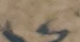༦
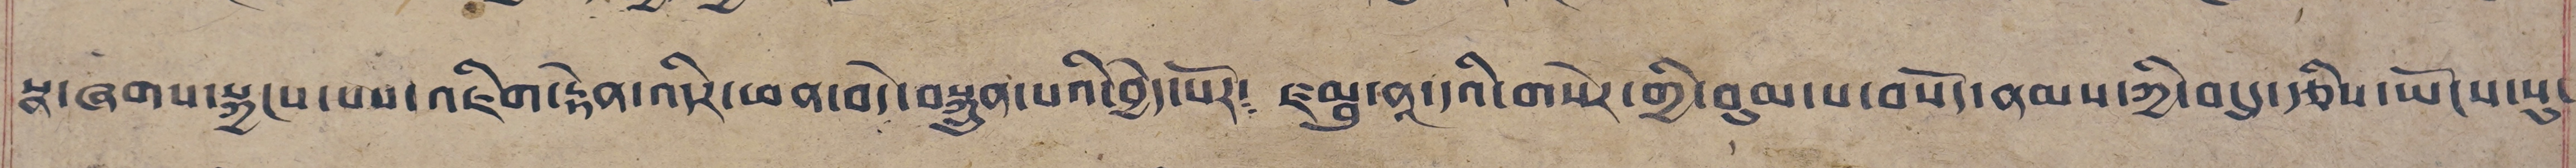སྣ་ཞགས་སྐྱངས་པས་འཇིག་རྟེན་འདིར་ཕན་བདེ་བསྐྲུན་པའི་བྱེད་པོར་༴ ཛམྦུ་ནཱ་དའི་གསེར་གྱི་བུམ་པ་བསོད་ནམས་ཀྱི་བསུ་རྩིས་ཡོངས་སུ་
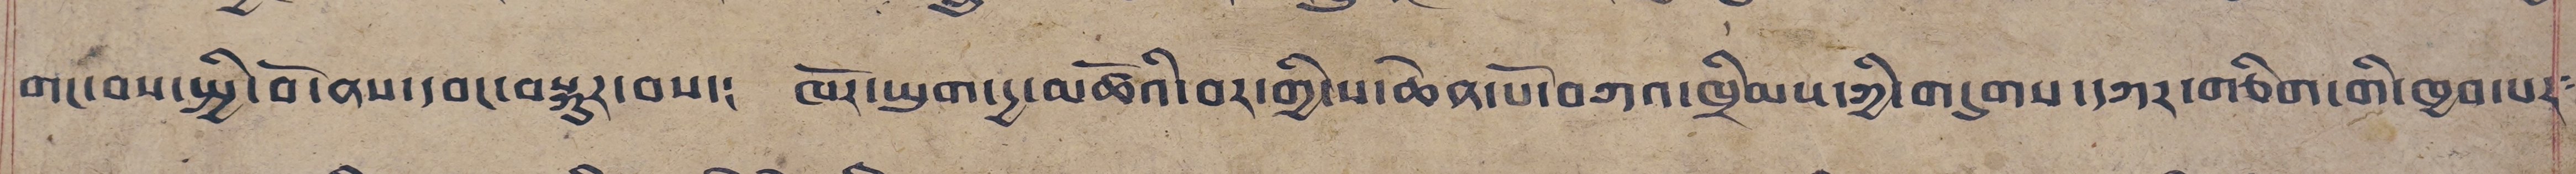གང་བས་སྤྱི་བོ་ནས་དབང་བསྐུར་བས་༴ ཁོར་ཡུག་དྱ་མཚོའི་བར་གྱི་ས་ཆེན་པོ་བཀའ་ཁྲིམས་ཀྱི་གདུགས་དཀར་གཅིག་གྱི་ཁྱབ་པར༴
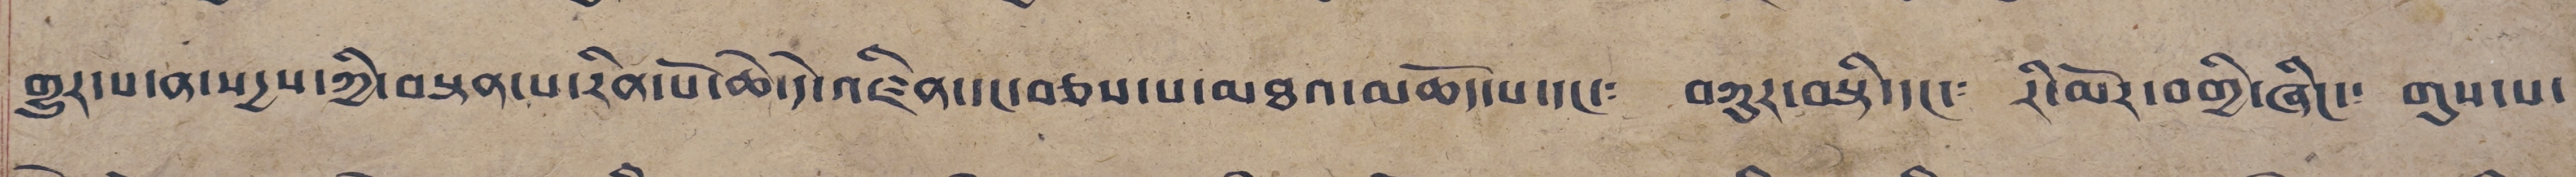གྱུར་པ་ན་སདྱས་ཀྱི་བསྟན་པ་རིན་པོ་ཆེ་དེ་འཛིན་དང་བཅས་པ་མཐའ་མཆོད་པ་དང་༴ བཀུར་བསྟི་དང་༴ རི་མོར་བགྱི་ཞིང་༴ གུས་པ་
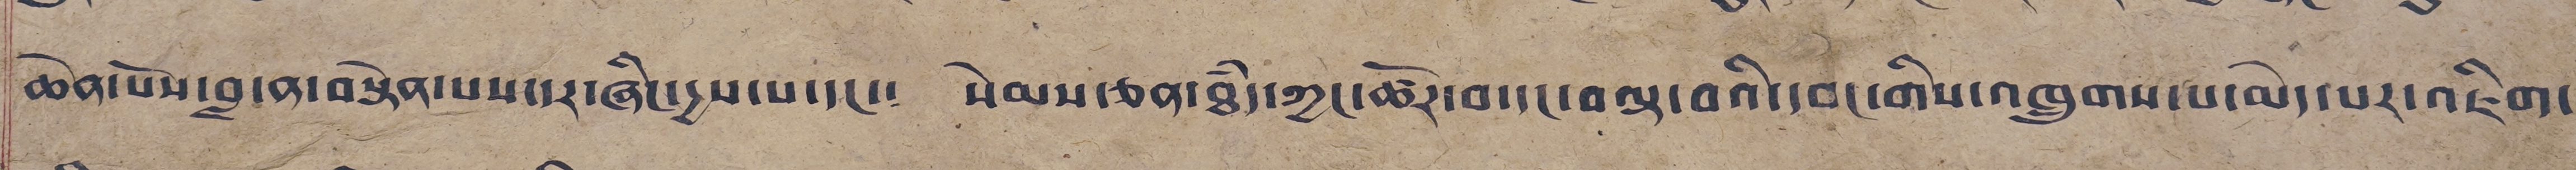ཆེན་པོས་བླ་ན་བསྟེན་པས་དར་ཞིང་དྱས་པ་དང་༴ སེམས་ཅན་ཐཾད་ཀྱང་ཚོར་བ་དང་བལྟ་བའི་དབང་གིས་འཁྲུགས་པ་མེད་པར་འཇིག་
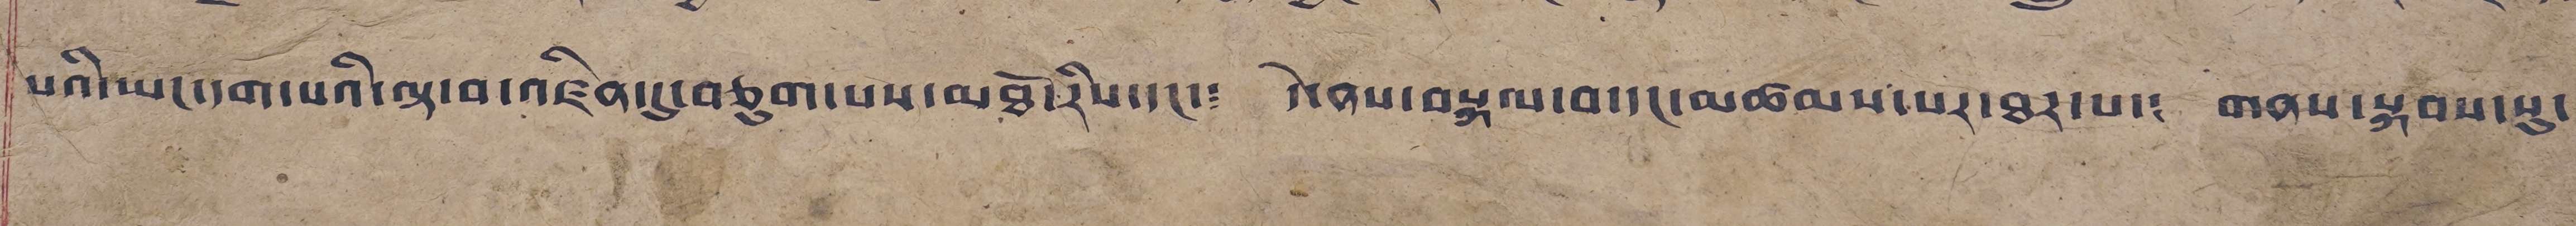པའི་ཡང་དག་པའི་ལྟ་བ་འཛིན་དུ་བཅུག་པས་མཐོ་རིས་དང་༴ དེ་ནས་བསྐལ་བ་དང་མཚམས་པར་ཐར་པ་༴ གནས་སྐབས་སུ་
